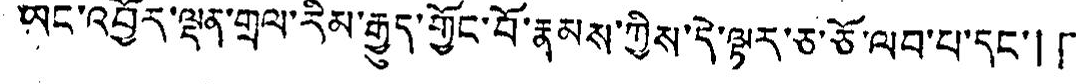ཡང་འབྱོར་ལྡན་གྲལ་རིམ་རྒྱུད་གྱོང་བོ་རྣམས་ཀྱིས་དེ་ལྟར་ཅ་ཅོ་ལབ་པ་དང་། 「
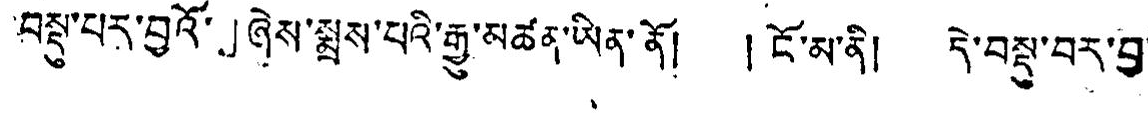བསྡུ་པར་བྱའོ་」ཞེས་སྨྲས་པའི་རྒྱུ་མཚན་ཡིན་ནོ། །ངོ་མ་ནི། དེ་བསྡུ་བར་བྱ་
